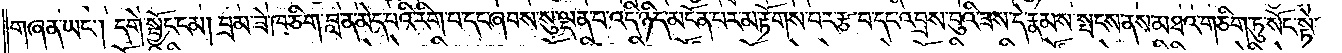གཞན་ཡང༌། དགེ་སྦྱོང་ངམ། བྲམ་ཟེ་ཁ་ཅིག་བླ་ན་མེད་པའི་རིག་པ་དང་ཞབས་སུ་ལྡན་པ་འདི་ཉིད་མངོན་པར་མ་རྟོགས་པར་རྩ་བ་དང་འབྲས་བུའི་ཟས་དེ་རྣམས་སྤངས་ནས་མཐའ་གཅིག་ཏུ་སོང་སྟེ་
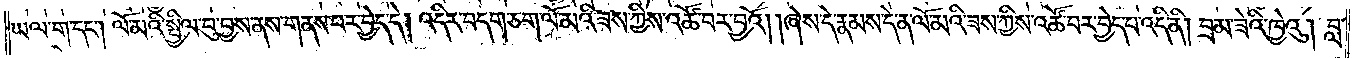ཡལ་ག་དང༌། ལོ་མའི་སྤྱིལ་བུ་བྱས་ནས་གནས་པར་བྱེད་དེ། འདིར་བདག་ཅག་ལོ་མའི་ཟས་ཀྱིས་འཚོ་བར་བྱའོ། །ཞེས་དེ་རྣམས་དེ་ན་ལོ་མའི་ཟས་ཀྱིས་འཚོ་བར་བྱེད་པ་འདི་ནི། བྲམ་ཟེའི་ཁྱེའུ། བླ་
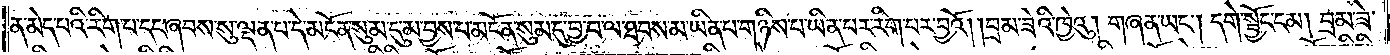ན་མེད་པའི་རིག་པ་དང་ཞབས་སུ་ལྡན་པ་དེ་མངོན་སུམ་དུ་མ་བྱས་པ་མངོན་སུམ་དུ་བྱ་བ་ལ་ཐབས་མ་ཡིན་པ་གཉིས་པ་ཡིན་པར་རིག་པར་བྱའོ། །བྲམ་ཟེའི་ཁྱེའུ། གཞན་ཡང༌། དགེ་སྦྱོང་ངམ། བྲམ་ཟེ་
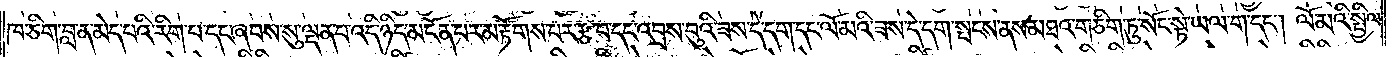ཁ་ཅིག་བླ་ན་མེད་པའི་རིག་པ་དང་ཞབས་སུ་ལྡན་པ་འདི་ཉིད་མངོན་པར་མ་རྟོགས་པར་རྩ་བ་དང་འབྲས་བུའི་ཟས་དེ་དག་དང་ལོ་མའི་ཟས་དེ་དག་སྤངས་ནས་མཐའ་གཅིག་ཏུ་སོང་སྟེ་ཡལ་ག་དང༌། ལོ་མའི་སྤྱིལ་
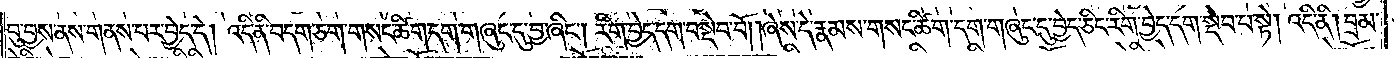བུ་བྱས་ནས་གནས་པར་བྱེད་དེ། འདི་ནི་བདག་ཅག་གསང་ཚིག་དག་གཞུང་དུ་བྱ་ཞིང༌། རིག་བྱེད་དེ་དག་བསྡེབ་བོ། །ཞེས་དེ་རྣམས་གསང་ཚིག་དག་གཞུང་དུ་བྱེད་ཅིང་རིག་བྱེད་དག་སྡེབ་པ་སྟེ། འདི་ནི། བྲམ་
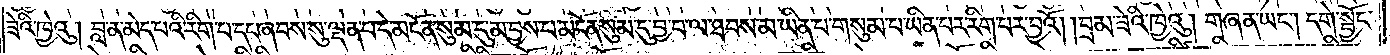ཟེའི་ཁྱེའུ། བླ་ན་མེད་པའི་རིག་པ་དང་ཞབས་སུ་ལྡན་པ་དེ་མངོན་སུམ་དུ་མ་བྱས་པ་མངོན་སུམ་དུ་བྱ་བ་ལ་ཐབས་མ་ཡིན་པ་གསུམ་པ་ཡིན་པར་རིག་པར་བྱའོ། །བྲམ་ཟེའི་ཁྱེའུ། གཞན་ཡང༌། དགེ་སྦྱོང་
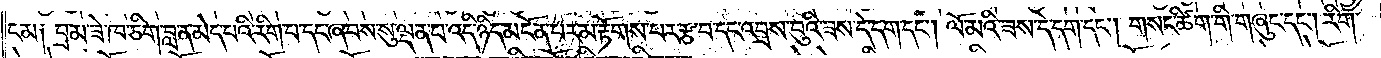ངམ། བྲམ་ཟེ་ཁ་ཅིག་བླ་ན་མེད་པའི་རིག་པ་དང་ཞབས་སུ་ལྡན་པ་འདི་ཉིད་མངོན་པར་མ་རྟོགས་པར་རྩ་བ་དང་འབྲས་བུའི་ཟས་དེ་དག་དང༌། ལོ་མའི་ཟས་དེ་དག་དང༌། གསང་ཚིག་གི་གཞུང་དང༌། རིག་
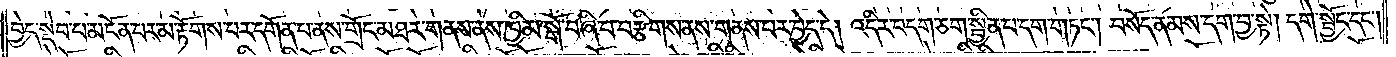བྱེད་སྡེབ་པ་མངོན་པར་མ་རྟོགས་པར་དགོན་པ་ནས་གྲོང་མཐར་གནས་ནས་ཁྱིམ་སྒོ་བཞི་པ་བརྩིགས་ནས་གནས་པར་བྱེད་དེ། འདིར་བདག་ཅག་སྦྱིན་པ་དག་གཏང༌། བསོད་ནམས་དག་བྱ་སྟེ། དགེ་སྦྱོང་དང་
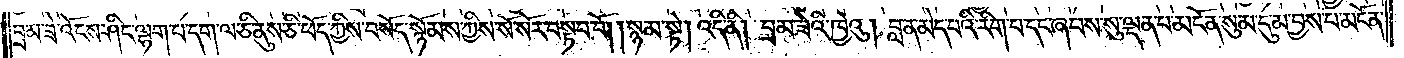བྲམ་ཟེ་འོངས་ཤིང་ལྷག་པ་དག་ལ་ཅི་ནུས་ཅི་ཕོད་ཀྱིས་བསོད་སྙོམས་ཀྱིས་སོ་སོར་བསྟབ་བོ། །སྙམ་སྟེ། འདི་ནི། བྲམ་ཟེའི་ཁྱེའུ། བླ་ན་མེད་པའི་རིག་པ་དང་ཞབས་སུ་ལྡན་པ་མངོན་སུམ་དུ་མ་བྱས་པ་མངོན་
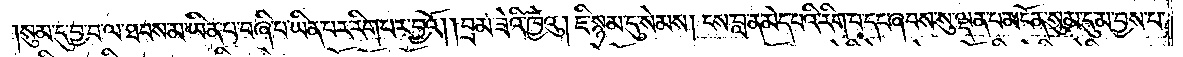སུམ་དུ་བྱ་བ་ལ་ཐབས་མ་ཡིན་པ་བཞི་པ་ཡིན་པར་རིག་པར་བྱའོ། །བྲམ་ཟེའི་ཁྱེའུ། ཇི་སྙམ་དུ་སེམས། ངས་བླ་ན་མེད་པའི་རིག་པ་དང་ཞབས་སུ་ལྡན་པ་མངོན་སུམ་དུ་མ་བྱས་པ་
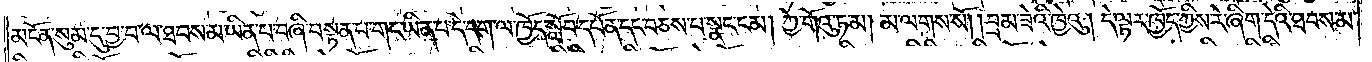མངོན་སུམ་དུ་བྱ་བ་ལ་ཐབས་མ་ཡིན་པ་བཞི་བསྟན་པ་གང་ཡིན་པ་དེ་དག་ལ་ཁྱོད་སློབ་དཔོན་དང་བཅས་པ་སྣང་ངམ། ཀྱེ་གོའུ་ཏ་མ། མ་ལགས་སོ། །བྲམ་ཟེའི་ཁྱེའུ། དེ་ལྟར་ཁྱོད་ཀྱིས་རེ་ཞིག་དེའི་ཐབས་མ་
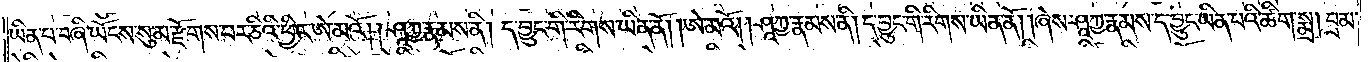ཡིན་པ་བཞི་ཡོངས་སུ་མ་རྫོགས་པར་ཅིའི་ཕྱིར་ཨེ་མའོ། །ཤཱཀྱ་རྣམས་ནི། ད་བྱུང་གི་རིགས་ཡིན་ནོ། །ཨེ་མའོ། །ཤཱཀྱ་རྣམས་ནི། ད་བྱུང་གི་རིགས་ཡིན་ནོ། །ཞེས་ཤཱཀྱ་རྣམས་ད་བྱུང་ཡིན་པའི་ཚིག་སྨྲ། བྲམ་
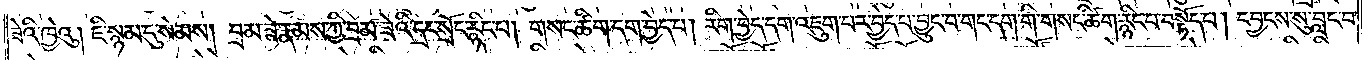ཟེའི་ཁྱེའུ། ཇི་སྙམ་དུ་སེམས། བྲམ་ཟེ་རྣམས་ཀྱི་བྲམ་ཟེའི་དྲང་སྲོང་རྙིང་པ། གསང་ཚིག་དག་བྱེད་པ། རིག་བྱེད་དག་འཇུག་པར་བྱེད་པ་བྱུང་བ་གང་དག་གི་གསང་ཚིག་རྙིང་པ་བསྟོད་པ། དབྱངས་སུ་བླང་བ་
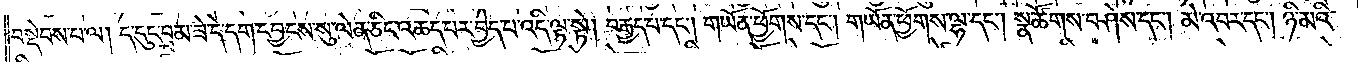བསྡེབས་པ་ལ། ད་དུང་བྲམ་ཟེ་དེ་དག་དབྱངས་སུ་ལེན་ཅིང་འཆད་པར་བྱེད་པ་འདི་ལྟ་སྟེ། བརྒྱད་པ་དང༌། གཡོན་ཕྱོགས་དང༌། གཡོན་ཕྱོགས་ལྷ་དང༌། སྣ་ཚོགས་བཤེས་དང༌། མེ་འབར་དང༌། ཉི་མའི་
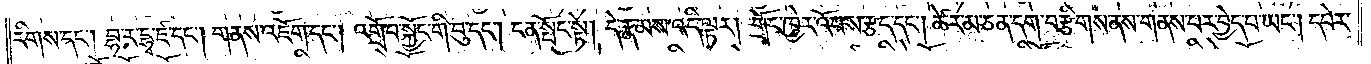རིགས་དང༌། བྷ་ར་དྷྭ་ཛ་དང༌། གནས་འཇོག་དང༌། འགྲོ་བ་སྐྱོང་གི་བུ་དང༌། ངན་སྤོང་སྟེ། དེ་རྣམས་འདི་ལྟར། གྲོང་ཁྱེར་འོབས་རྩད་དང༌། ཚེར་མ་ཅན་དག་བརྩིགས་ནས་གནས་པར་བྱེད་པ་ཡང༌། དཔེར་
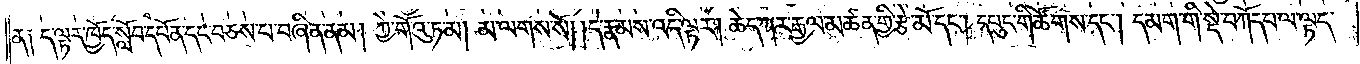ན ༑ ད་ལྟར་ཁྱོད་སློབ་དཔོན་དང་བཅས་པ་བཞིན་ནམ། ཀྱེ་གོའུ་ཏ་མ། མ་ལགས་སོ། །དེ་རྣམས་འདི་ལྟར། ཆེད་ཀར་རྒྱལ་མཚན་གྱི་རྩེ་མོ་དང༌། དཔུང་གི་ཚོགས་དང༌། དམག་གི་སྡེ་བཀོད་པ་ལ་ལྟད་
